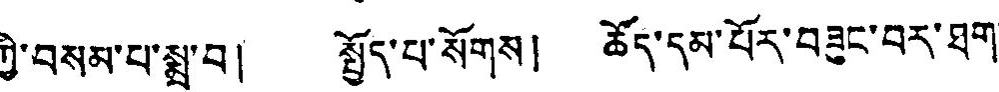ཀྱི་བསམ་པ་སྨྲ་བ། སྤྱོད་པ་སོགས། ཆོད་དམ་པོར་བཟུང་བར་ཐག་
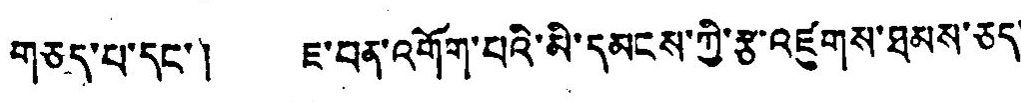གཅད་པ་དང་། ཇ་བན་འགོག་པའི་མི་དམངས་ཀྱི་རྩ་འཛུགས་ཐམས་ཅད་
